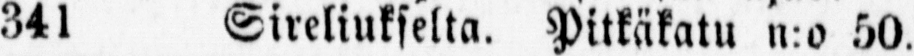341 Sireliukselta. Pitkäkatu n:o 50.
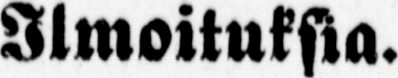Ilmoituksia.
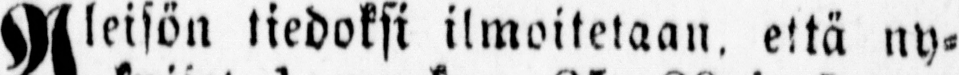Yleisön tiedoksi ilmoitetaan, että ny-
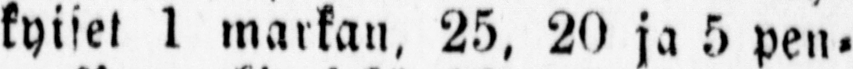kyiset 1 markan. 25, 20 ja 5 pen-
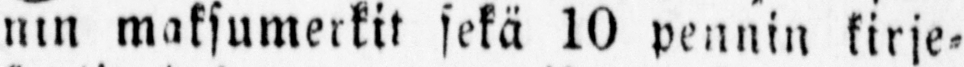nin maksumerkit sekä 10 pennin kirje-
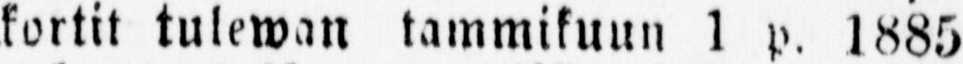kortit tulewan tammikuun 1 p. 1885
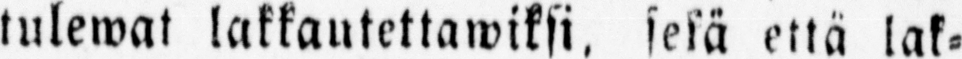tulewat lakkautettawiksi, sekä että lak-
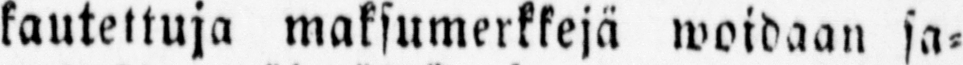kautettuja maksumerkkejä woidaan sa-
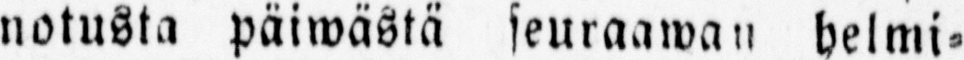notusta päiwästä seuraawan helmi-
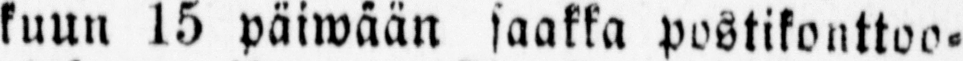kuun 15 päiwään saakka postikonttoo-
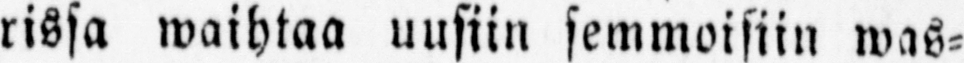rissa waihtaa uusiin semmoisiin was-
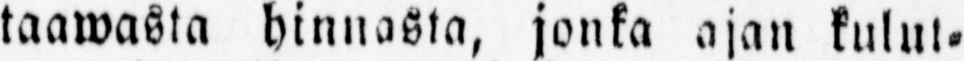taawasta hinnasta, jonka ajan kulut-
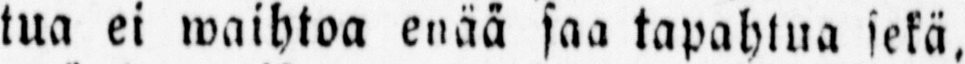tua ei waihtoa enää saa tapahtua sekä.
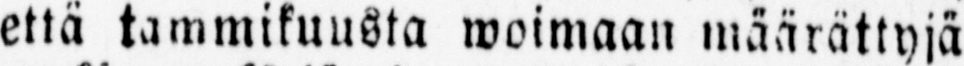että tammikuusta woimaan määrättyjä
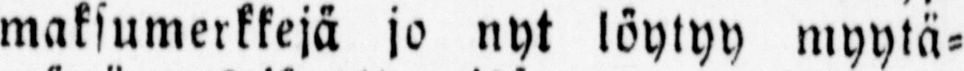maksumerkkejä jo nyt löytyy myytä-
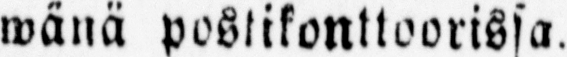wänä postikonttoorissa.
